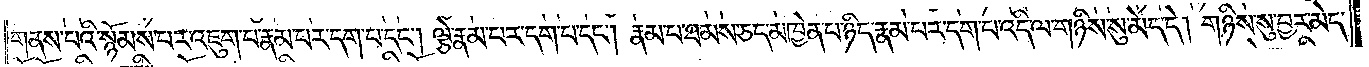གནས་པའི་སྙོམས་པར་འཇུག་པ་རྣམ་པར་དག་པ་དང༌། ལྕེ་རྣམ་པར་དག་པ་དང༌། རྣམ་པ་ཐམས་ཅད་མཁྱེན་པ་ཉིད་རྣམ་པར་དག་པ་འདི་ལ་གཉིས་སུ་མེད་དེ། གཉིས་སུ་བྱར་མེད་
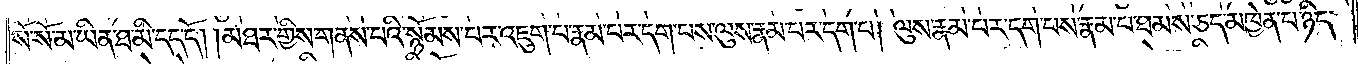སོ་སོ་མ་ཡིན་ཐ་མི་དད་དོ། །མཐར་གྱིས་གནས་པའི་སྙོམས་པར་འཇུག་པ་རྣམ་པར་དག་པས་ལུས་རྣམ་པར་དག་པ། ལུས་རྣམ་པར་དག་པས་རྣམ་པ་ཐམས་ཅད་མཁྱེན་པ་ཉིད་
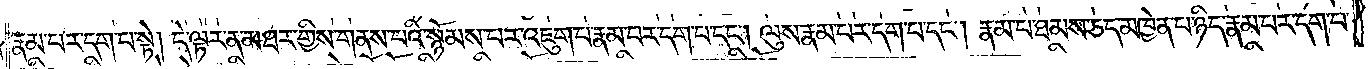རྣམ་པར་དག་པ་སྟེ། དེ་ལྟར་ན་མཐར་གྱིས་གནས་པའི་སྙོམས་པར་འཇུག་པ་རྣམ་པར་དག་པ་དང༌། ལུས་རྣམ་པར་དག་པ་དང༌། རྣམ་པ་ཐམས་ཅད་མཁྱེན་པ་ཉིད་རྣམ་པར་དག་པ་
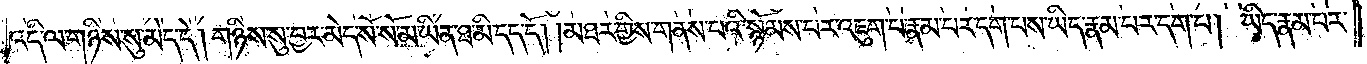འདི་ལ་གཉིས་སུ་མེད་དེ། གཉིས་སུ་བྱར་མེད་སོ་སོ་མ་ཡིན་ཐ་མི་དད་དོ། །མཐར་གྱིས་གནས་པའི་སྙོམས་པར་འཇུག་པ་རྣམ་པར་དག་པས་ཡིད་རྣམ་པར་དག་པ། ཡིད་རྣམ་པར་
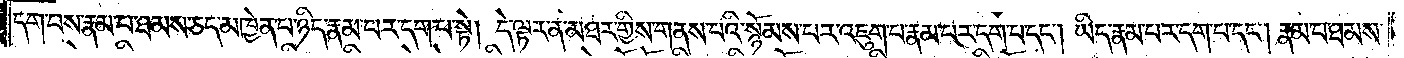དག་པས་རྣམ་པ་ཐམས་ཅད་མཁྱེན་པ་ཉིད་རྣམ་པར་དག་པ་སྟེ། དེ་ལྟར་ན་མཐར་གྱིས་གནས་པའི་སྙོམས་པར་འཇུག་པ་རྣམ་པར་དག་པ་དང༌། ཡིད་རྣམ་པར་དག་པ་དང༌། རྣམ་པ་ཐམས་
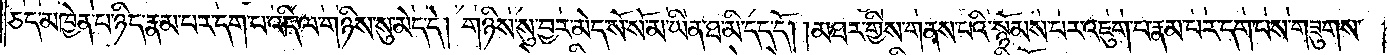ཅད་མཁྱེན་པ་ཉིད་རྣམ་པར་དག་པ་འདི་ལ་གཉིས་སུ་མེད་དེ། གཉིས་སུ་བྱར་མེད་སོ་སོ་མ་ཡིན་ཐ་མི་དད་དོ། །མཐར་གྱིས་གནས་པའི་སྙོམས་པར་འཇུག་པ་རྣམ་པར་དག་པས་གཟུགས་
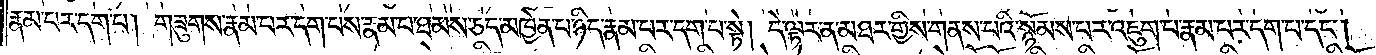རྣམ་པར་དག་པ། གཟུགས་རྣམ་པར་དག་པས་རྣམ་པ་ཐམས་ཅད་མཁྱེན་པ་ཉིད་རྣམ་པར་དག་པ་སྟེ། དེ་ལྟར་ན་མཐར་གྱིས་གནས་པའི་སྙོམས་པར་འཇུག་པ་རྣམ་པར་དག་པ་དང༌།
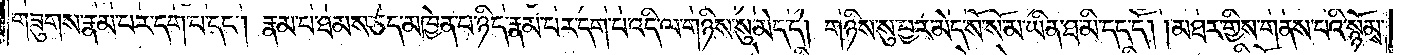གཟུགས་རྣམ་པར་དག་པ་དང༌། རྣམ་པ་ཐམས་ཅད་མཁྱེན་པ་ཉིད་རྣམ་པར་དག་པ་འདི་ལ་གཉིས་སུ་མེད་དེ། གཉིས་སུ་བྱར་མེད་སོ་སོ་མ་ཡིན་ཐ་མི་དད་དོ། །མཐར་གྱིས་གནས་པའི་སྙོམས་
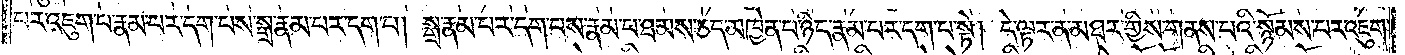པར་འཇུག་པ་རྣམ་པར་དག་པས་སྒྲ་རྣམ་པར་དག་པ། སྒྲ་རྣམ་པར་དག་པས་རྣམ་པ་ཐམས་ཅད་མཁྱེན་པ་ཉིད་རྣམ་པར་དག་པ་སྟེ། དེ་ལྟར་ན་མཐར་གྱིས་གནས་པའི་སྙོམས་པར་འཇུག་
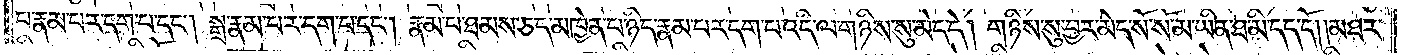པ་རྣམ་པར་དག་པ་དང༌། སྒྲ་རྣམ་པར་དག་པ་དང༌། རྣམ་པ་ཐམས་ཅད་མཁྱེན་པ་ཉིད་རྣམ་པར་དག་པ་འདི་ལ་གཉིས་སུ་མེད་དེ། གཉིས་སུ་བྱར་མེད་སོ་སོ་མ་ཡིན་ཐ་མི་དད་དོ། །མཐར་
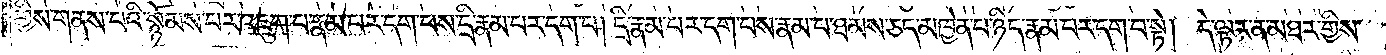གྱིས་གནས་པའི་སྙོམས་པར་འཇུག་པ་རྣམ་པར་དག་པས་དྲི་རྣམ་པར་དག་པ། དྲི་རྣམ་པར་དག་པས་རྣམ་པ་ཐམས་ཅད་མཁྱེན་པ་ཉིད་རྣམ་པར་དག་པ་སྟེ། དེ་ལྟར་ན་མཐར་གྱིས་
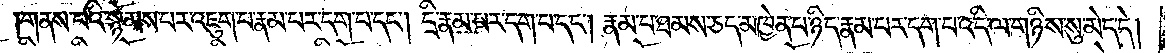གནས་པའི་སྙོམས་པར་འཇུག་པ་རྣམ་པར་དག་པ་དང༌། དྲི་རྣམ་པར་དག་པ་དང༌། རྣམ་པ་ཐམས་ཅད་མཁྱེན་པ་ཉིད་རྣམ་པར་དག་པ་འདི་ལ་གཉིས་སུ་མེད་དེ།
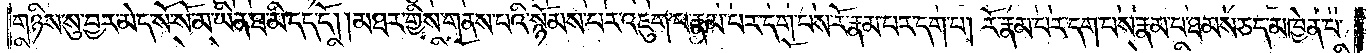གཉིས་སུ་བྱར་མེད་སོ་སོ་མ་ཡིན་ཐ་མི་དད་དོ། །མཐར་གྱིས་གནས་པའི་སྙོམས་པར་འཇུག་པ་རྣམ་པར་དག་པས་རོ་རྣམ་པར་དག་པ། རོ་རྣམ་པར་དག་པས་རྣམ་པ་ཐམས་ཅད་མཁྱེན་པ་
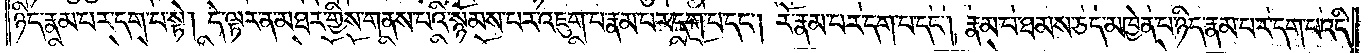ཉིད་རྣམ་པར་དག་པ་སྟེ། དེ་ལྟར་ན་མཐར་གྱིས་གནས་པའི་སྙོམས་པར་འཇུག་པ་རྣམ་པར་དག་པ་དང༌། རོ་རྣམ་པར་དག་པ་དང༌། རྣམ་པ་ཐམས་ཅད་མཁྱེན་པ་ཉིད་རྣམ་པར་དག་པ་འདི་
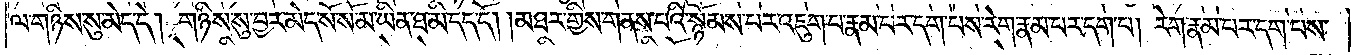ལ་གཉིས་སུ་མེད་དེ། གཉིས་སུ་བྱར་མེད་སོ་སོ་མ་ཡིན་ཐ་མི་དད་དོ། །མཐར་གྱིས་གནས་པའི་སྙོམས་པར་འཇུག་པ་རྣམ་པར་དག་པས་རེག་རྣམ་པར་དག་པ། རེག་རྣམ་པར་དག་པས་
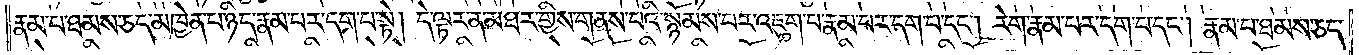རྣམ་པ་ཐམས་ཅད་མཁྱེན་པ་ཉིད་རྣམ་པར་དག་པ་སྟེ། དེ་ལྟར་ན་མཐར་གྱིས་གནས་པའི་སྙོམས་པར་འཇུག་པ་རྣམ་པར་དག་པ་དང༌། རེག་རྣམ་པར་དག་པ་དང༌། རྣམ་པ་ཐམས་ཅད་
